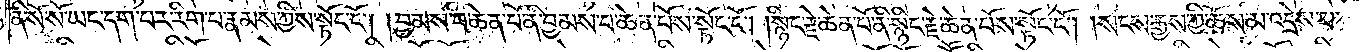ནི་སོ་སོ་ཡང་དག་པར་རིག་པ་རྣམས་ཀྱིས་སྟོང་ངོ༌། །བྱམས་པ་ཆེན་པོ་ནི་བྱམས་པ་ཆེན་པོས་སྟོང་ངོ༌། །སྙིང་རྗེ་ཆེན་པོ་ནི་སྙིང་རྗེ་ཆེན་པོས་སྟོང་ངོ༌། །སངས་རྒྱས་ཀྱི་ཆོས་མ་འདྲེས་པ་
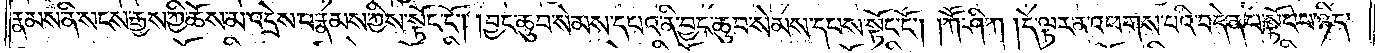རྣམས་ནི་སངས་རྒྱས་ཀྱི་ཆོས་མ་འདྲེས་པ་རྣམས་ཀྱིས་སྟོང་ངོ༌། །བྱང་ཆུབ་སེམས་དཔའ་ནི་བྱང་ཆུབ་སེམས་དཔས་སྟོང་ངོ༌། །ཀཽ་ཤི་ཀ །དེ་ལྟར་ན་འཕགས་པའི་བདེན་པ་སྟོང་པ་ཉིད་
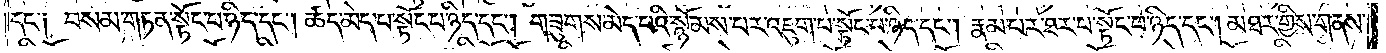དང༌༏ བསམ་གཏན་སྟོང་པ་ཉིད་དང༌། ཚད་མེད་པ་སྟོང་པ་ཉིད་དང༌། གཟུགས་མེད་པའི་སྙོམས་པར་འཇུག་པ་སྟོང་པ་ཉིད་དང༌། རྣམ་པར་ཐར་པ་སྟོང་པ་ཉིད་དང༌། མཐར་གྱིས་གནས་
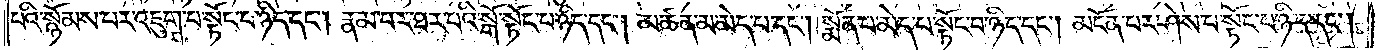པའི་སྙོམས་པར་འཇུག་པ་སྟོང་པ་ཉིད་དང༌། རྣམ་པར་ཐར་པའི་སྒོ་སྟོང་པ་ཉིད་དང༌། མཚན་མ་མེད་པ་དང༌། སྨོན་པ་མེད་པ་སྟོང་པ་ཉིད་དང༌། མངོན་པར་ཤེས་པ་སྟོང་པ་ཉིད་དང༌།
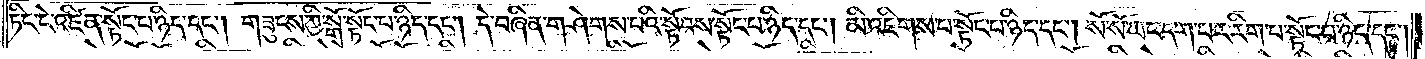ཏིང་ངེ་འཛིན་སྟོང་པ་ཉིད་དང༌། གཟུངས་ཀྱི་སྒོ་སྟོང་པ་ཉིད་དང༌། དེ་བཞིན་གཤེགས་པའི་སྟོབས་སྟོང་པ་ཉིད་དང༌། མི་འཇིགས་པ་སྟོང་པ་ཉིད་དང༌། སོ་སོ་ཡང་དག་པར་རིག་པ་སྟོང་པ་ཉིད་དང༌།
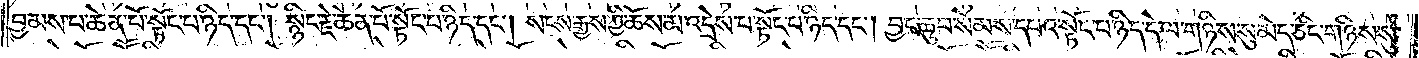བྱམས་པ་ཆེན་པོ་སྟོང་པ་ཉིད་དང༌། སྙིང་རྗེ་ཆེན་པོ་སྟོང་པ་ཉིད་དང༌། སངས་རྒྱས་ཀྱི་ཆོས་མ་འདྲེས་པ་སྟོང་པ་ཉིད་དང༌། བྱང་ཆུབ་སེམས་དཔའ་སྟོང་པ་ཉིད་དེ་ལ་གཉིས་སུ་མེད་ཅིང་གཉིས་སུ་
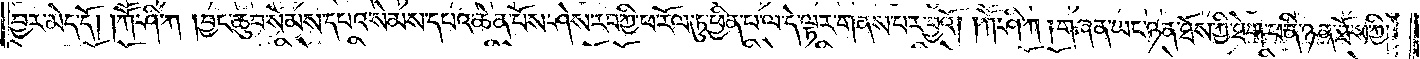བྱར་མེད་དོ། །ཀཽ་ཤི་ཀ །བྱང་ཆུབ་སེམས་དཔའ་སེམས་དཔའ་ཆེན་པོས་ཤེས་རབ་ཀྱི་ཕ་རོལ་ཏུ་ཕྱིན་པ་ལ་དེ་ལྟར་གནས་པར་བྱའོ། །ཀཽ་ཤི་ཀ །གཞན་ཡང་ཉན་ཐོས་ཀྱི་ཐེག་པ་ནི་ཉན་ཐོས་ཀྱི་
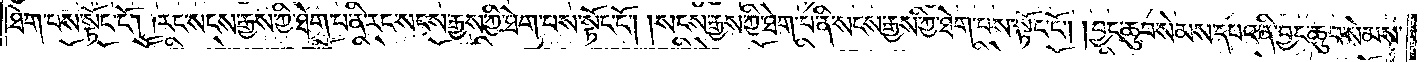ཐེག་པས་སྟོང་ངོ༌། །རང་སངས་རྒྱས་ཀྱི་ཐེག་པ་ནི་རང་སངས་རྒྱས་ཀྱི་ཐེག་པས་སྟོང་ངོ༌། །སངས་རྒྱས་ཀྱི་ཐེག་པ་ནི་སངས་རྒྱས་ཀྱི་ཐེག་པས་སྟོང་ངོ༌། །བྱང་ཆུབ་སེམས་དཔའ་ནི་བྱང་ཆུབ་སེམས་
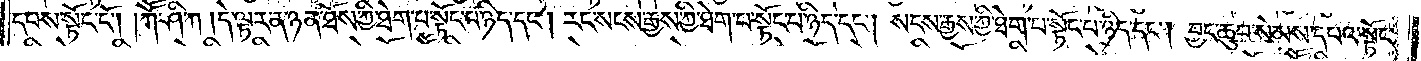དཔས་སྟོང་ངོ༌། །ཀཽ་ཤི་ཀ །དེ་ལྟར་ན་ཉན་ཐོས་ཀྱི་ཐེག་པ་སྟོང་པ་ཉིད་དང༌། རང་སངས་རྒྱས་ཀྱི་ཐེག་པ་སྟོང་པ་ཉིད་དང༌། སངས་རྒྱས་ཀྱི་ཐེག་པ་སྟོང་པ་ཉིད་དང༌། བྱང་ཆུབ་སེམས་དཔའ་སྟོང་
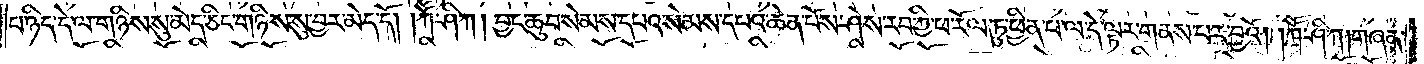པ་ཉིད་དེ་ལ་གཉིས་སུ་མེད་ཅིང་གཉིས་སུ་བྱར་མེད་དོ། །ཀཽ་ཤི་ཀ །བྱང་ཆུབ་སེམས་དཔའ་སེམས་དཔའ་ཆེན་པོས། ཤེས་རབ་ཀྱི་ཕ་རོལ་ཏུ་ཕྱིན་པ་ལ་དེ་ལྟར་གནས་པར་བྱའོ། །ཀཽ་ཤི་ཀ །གཞན་
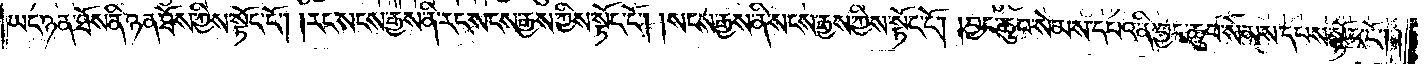ཡང་ཉན་ཐོས་ནི་ཉན་ཐོས་ཀྱིས་སྟོང་ངོ༌། །རང་སངས་རྒྱས་ནི་རང་སངས་རྒྱས་ཀྱིས་སྟོང་ངོ༌། །སངས་རྒྱས་ནི་སངས་རྒྱས་ཀྱིས་སྟོང་ངོ༌། །བྱང་ཆུབ་སེམས་དཔའ་ནི་བྱང་ཆུབ་སེམས་དཔས་སྟོང་ངོ༌། །
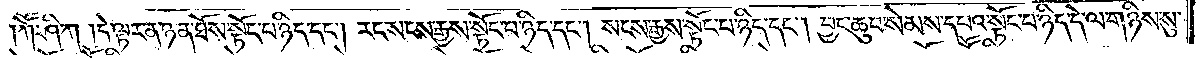ཀཽ་ཤི་ཀ །དེ་ལྟར་ན་ཉན་ཐོས་སྟོང་པ་ཉིད་དང༌། རང་སངས་རྒྱས་སྟོང་པ་ཉིད་དང༌། སངས་རྒྱས་སྟོང་པ་ཉིད་དང༌། བྱང་ཆུབ་སེམས་དཔའ་སྟོང་པ་ཉིད་དེ་ལ་གཉིས་སུ་
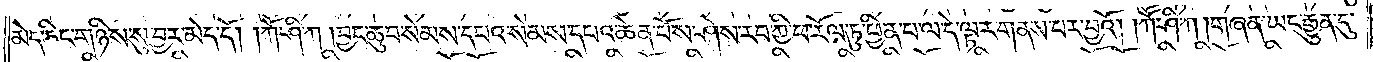མེད་ཅིང་གཉིས་སུ་བྱར་མེད་དོ། །ཀཽ་ཤི་ཀ །བྱང་ཆུབ་སེམས་དཔའ་སེམས་དཔའ་ཆེན་པོས་ཤེས་རབ་ཀྱི་ཕ་རོལ་ཏུ་ཕྱིན་པ་ལ་དེ་ལྟར་གནས་པར་བྱའོ། །ཀཽ་ཤི་ཀ །གཞན་ཡང་རྒྱུན་དུ་
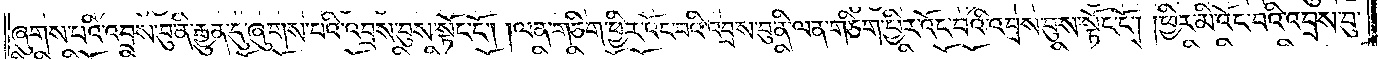ཞུགས་པའི་འབྲས་བུ་ནི་རྒྱུན་དུ་ཞུགས་པའི་འབྲས་བུས་སྟོང་ངོ༌། །ལེན་ཅིག་ཕྱིར་འོང་བའི་འབྲས་བུ་ནི་ལན་ཅིག་ཕྱིར་འོང་བའི་འབྲས་བུས་སྟོང་ངོ༌། །ཕྱིར་མི་འོང་བའི་འབྲས་བུ་
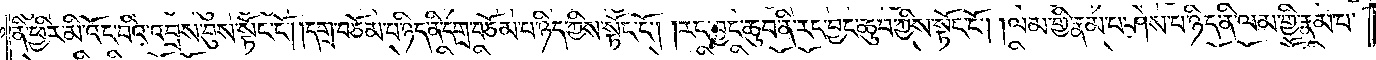ནི་ཕྱིར་མི་འོང་བའི་འབྲས་བུས་སྟོང་ངོ༌། །དགྲ་བཅོམ་པ་ཉིད་ནི་དགྲ་བཅོམ་པ་ཉིད་ཀྱིས་སྟོང་ངོ༌། །རང་བྱང་ཆུབ་ནི་རང་བྱང་ཆུབ་ཀྱིས་སྟོང་ངོ༌། །ལམ་གྱི་རྣམ་པ་ཤེས་པ་ཉིད་ནི་ལམ་གྱི་རྣམ་པ་
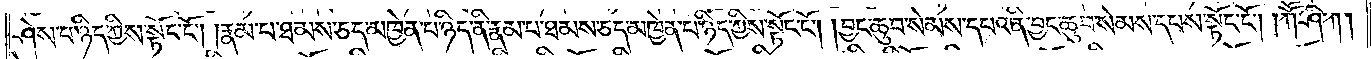ཤེས་པ་ཉིད་ཀྱིས་སྟོང་ངོ༌། །རྣམ་པ་ཐམས་ཅད་མཁྱེན་པ་ཉིད་ནི་རྣམ་པ་ཐམས་ཅད་མཁྱེན་པ་ཉིད་ཀྱིས་སྟོང་ངོ༌། །བྱང་ཆུབ་སེམས་དཔའ་ནི་བྱང་ཆུབ་སེམས་དཔས་སྟོང་ངོ༌། །ཀཽ་ཤི་ཀ།
